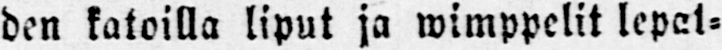den katoilla liput ja wimppelit lepat-
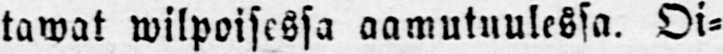tawat wilpoisessa aamutuulessa. Oi-
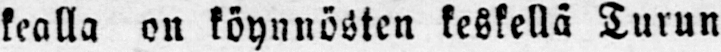kealla on köynnösten keskellä Turun
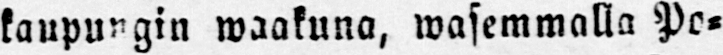kaupungin waakuna, wasemmalla Po-
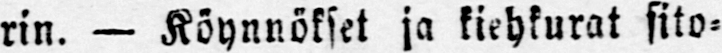rin. — Köynnökset ja kiehkurat sito-
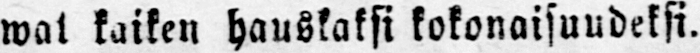wat kaiken hauskaksi kokonaisuudeksi.
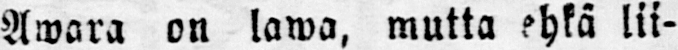Awara on lawa, mutta ehkä lii-
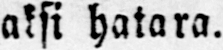aksi hatara.
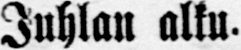Juhlan alku.
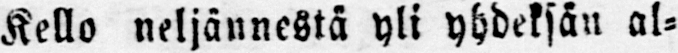Kello neljännestä yli yhdeksän al-
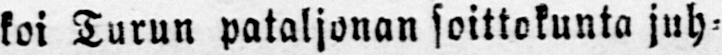koi Turun pataljonan soittokunta juh-
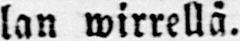lan mirrellä.
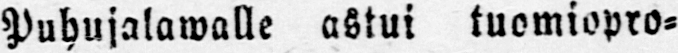Puhujalawalle astui tuomiopro-
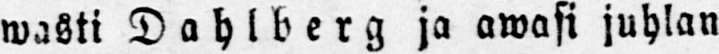wasti Dahlberg ja awasi juhlan
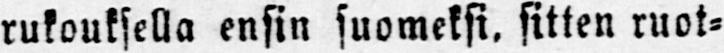rukouksella ensin suomeksi, sitten ruot-
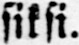siksi.
